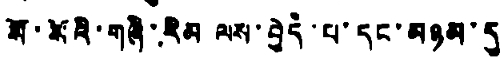སོ་སོའི་གཞི་རིམ ལས་བྱེད་པ་དང་མཉམ་དུ
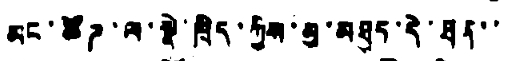མང་ཚོཌ་ལ་སྣེ་ཁྲིད་ཀྱིས་མུ་མཐུད་དེ་ཐན་་
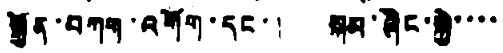སྐྱོན་བཀག་འགོག་དང་། སྐམ་ཞིང་སྐྱེ་་་་
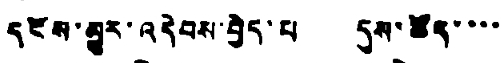དངོས་མྱུར་འདེབས་བྱེད་པ དུས་ཚོད་་་་
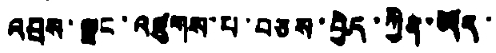འབྲས་ལྗང་འཛུགས་པ་བཅས་བྱེད་ཀྱིན་ཡོད་
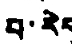པ་རེད།
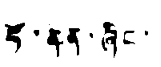ཧོ་ནན་ཞིང་་
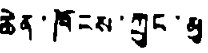ཆེན་ཁོངས་ཀྲུང་མུ
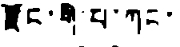རྫོང་གི་པ་ཀང་
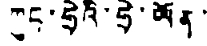ཀུང་ཧྲེའི་ཧྲེ་ཡོན་
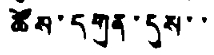ཚོས་དགུན་དུས་་
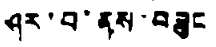ཤར་བ་ནས་བཟུང
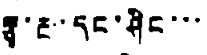རྩྭ་རྔ་དང་ཤིང་་་
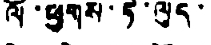ལོ་ཕྱགས་ཏེ་ལུད་
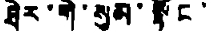ཐེར་གེ་སུམ་སྟོང་
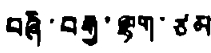བཞི་བརྒྱ་ལྷག་ཙམ
